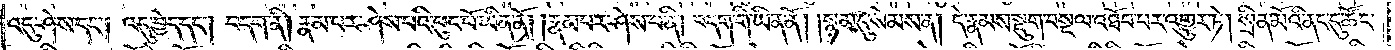འདུ་ཤེས་དང༌། འདུ་བྱེད་དང༌། བདག་ནི། རྣམ་པར་ཤེས་པའི་ཕུང་པོ་ཡིན་ནོ། །རྣམ་པར་ཤེས་པ་ནི། བདག་གི་ཡིན་ནོ། །སྙམ་དུ་སེམས་ན། དེ་རྣམས་སྡུག་བསྔལ་འཐོབ་པར་འགྱུར་ཏེ། སྲིན་མོའི་ནང་དུ་ཚོང་
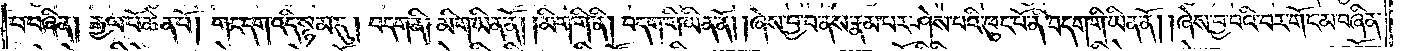པ་བཞིན། རྒྱལ་པོ་ཆེན་པོ། གང་དག་འདི་སྙམ་དུ། བདག་ནི། མིག་ཡིན་ནོ། །མིག་གི་ནི། བདག་གི་ཡིན་ནོ། །ཞེས་བྱ་བ་ནས་རྣམ་པར་ཤེས་པའི་ཕུང་པོ་ནི་བདག་གི་ཡིན་ནོ། །ཞེས་བྱ་བའི་བར་གོང་མ་བཞིན་
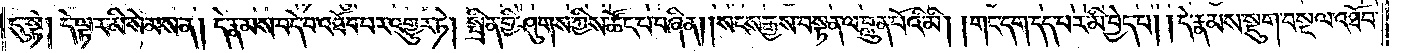དུ་སྟེ། དེ་ལྟར་མི་སེམས་ན། དེ་རྣམས་བདེ་བ་འཐོབ་པར་འགྱུར་ཏེ། སྤྲིན་གྱི་ཤུགས་ཀྱིས་ཚོང་པ་བཞིན། །སངས་རྒྱས་བསྟན་ལ་བླུན་པོའི་མི། །གང་དག་དད་པར་མི་བྱེད་པ། །དེ་རྣམས་སྡུག་བསྔལ་འཐོབ་
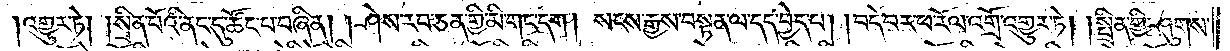།འགྱུར་ཏེ། །སྲིན་པོའི་ནང་དུ་ཚོང་པ་བཞིན། །ཤེས་རབ་ཅན་གྱི་མི་གང་དག། སངས་རྒྱས་བསྟན་ལ་དད་བྱེད་པ། །བདེ་བར་ཕ་རོལ་འགྲོ་འགྱུར་ཏེ། །སྤྲིན་གྱི་ཤུགས་
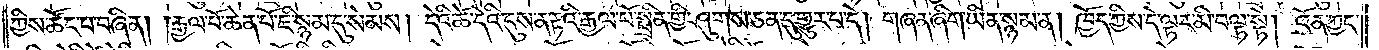ཀྱིས་ཚོང་པ་བཞིན། །རྒྱལ་པོ་ཆེན་པོ་ཇི་སྙམ་དུ་སེམས། དེའི་ཚེ་དེའི་དུས་ན་རྟའི་རྒྱལ་པོ་སྤྲིན་གྱི་ཤུགས་ཅན་དུ་གྱུར་པ་དེ། གཞན་ཞིག་ཡིན་སྙམ་ན། ཁྱོད་ཀྱིས་དེ་ལྟར་མི་བལྟ་སྟེ། འོན་ཀྱང་
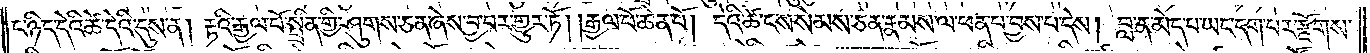ང་ཉིད་དེའི་ཚེ་དེའི་དུས་ན། རྟའི་རྒྱལ་པོ་སྤྲིན་གྱི་ཤུགས་ཅན་ཞེས་བྱ་བར་གྱུར་ཏོ། །རྒྱལ་པོ་ཆེན་པོ། དེའི་ཚེ་ངས་སེམས་ཅན་རྣམས་ལ་ཕན་པ་བྱས་པ་དེས། བླ་ན་མེད་པ་ཡང་དག་པར་རྫོགས་
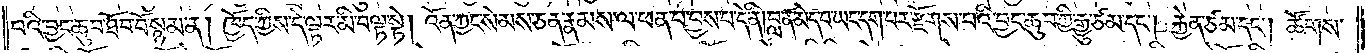པའི་བྱང་ཆུབ་ཐོབ་བོ་སྙམ་ན། ཁྱོད་ཀྱིས་དེ་ལྟར་མི་བལྟ་སྟེ། འོན་ཀྱང་སེམས་ཅན་རྣམས་ལ་ཕན་པ་བྱས་པ་དེ་ནི། བླ་ན་མེད་པ་ཡང་དག་པར་རྫོགས་པའི་བྱང་ཆུབ་ཀྱི་རྒྱུ་ཙམ་དང༌། རྐྱེན་ཙམ་དང༌། ཚོགས་
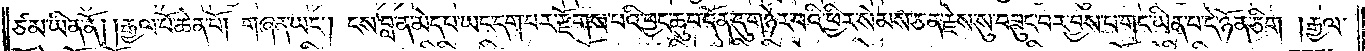ཙམ་ཡིན་ནོ། །རྒྱལ་པོ་ཆེན་པོ། གཞན་ཡང༌། ངས་བླ་ན་མེད་པ་ཡང་དག་པར་རྫོགས་པའི་བྱང་ཆུབ་དོན་དུ་གཉེར་བའི་ཕྱིར་སེམས་ཅན་རྗེས་སུ་བཟུང་བར་བྱས་པ་གང་ཡིན་པ་དེ་ཉོན་ཅིག །རྒྱལ་
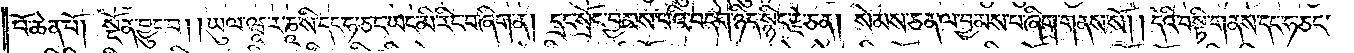པོ་ཆེན་པོ། སྔོན་བྱུང་བ། །ཡུལ་ཝཱ་ར་ཎཱ་སི་དང་ཧ་ཅང་ཡང་མི་རིང་བ་ཞིག་ན། དྲང་སྲོང་བྱམས་པའི་བདག་ཉིད་སྙིང་རྗེ་ཅན། སེམས་ཅན་ལ་བྱམས་པ་ཞིག་གནས་སོ། །དེའི་བསྟི་གནས་དང་ཧ་ཅང་
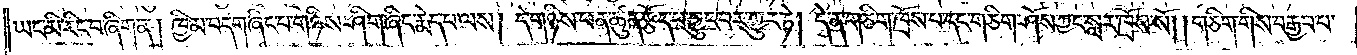ཡང་མི་རིང་བ་ཞིག་ན། ཁྱིམ་བདག་ཞིང་པ་གཉིས་ཤིག་ཞིང་རྨེད་པ་ལས། དེ་གཉིས་ཕན་ཚུན་རྩོད་པ་བྱུང་བར་གྱུར་ཏེ། དེ་ན་གཅིག་ཁྲོས་པ་དང་གཅིག་ཤོས་ཀྱང་སླར་ཁྲོས་སོ། །གཅིག་གིས་བརྒྱབ་པ་
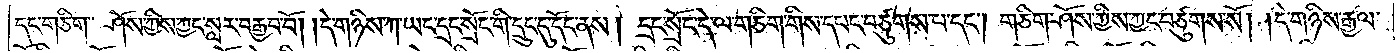དང་གཅིག་ཤོས་ཀྱིས་ཀྱང་སླར་བརྒྱབ་བོ། །དེ་གཉིས་ཀ་ཡང་དྲང་སྲོང་གི་དྲུང་དུ་དོང་ནས། དྲང་སྲོང་དེ་ལ་གཅིག་གིས་དབང་བཙུགས་པ་དང༌། གཅིག་ཤོས་ཀྱིས་ཀྱང་བཙུགས་སོ། །དེ་གཉིས་རྒྱལ་
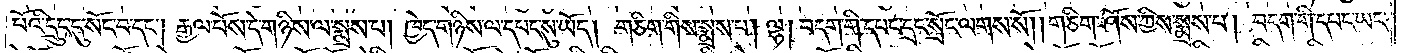པོའི་དྲུང་དུ་སོང་བ་དང༌། རྒྱལ་པོས་དེ་གཉིས་ལ་སྨྲས་པ། ཁྱེད་གཉིས་ལ་དཔང་སུ་ཡོད། གཅིག་གིས་སྨྲས་པ། ལྷ། བདག་གི་དཔང་དྲང་སྲོང་ལགས་སོ། །གཅིག་ཤོས་ཀྱིས་སྨྲས་པ། བདག་གི་དཔང་ཡང་
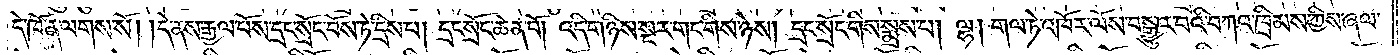དེ་ཁོ་ན་ལགས་སོ། །དེ་ནས་རྒྱལ་པོས་དྲང་སྲོང་བོས་ཏེ་དྲིས་པ། དྲང་སྲོང་ཆེན་པོ། འདི་གཉིས་སྔར་གང་གིས་ཉེས། དྲང་སྲོང་གིས་སྨྲས་པ། ལྷ། གལ་ཏེ་འཁོར་ལོས་བསྒྱུར་བའི་བཀའ་ཁྲིམས་ཀྱིས་ཞལ་
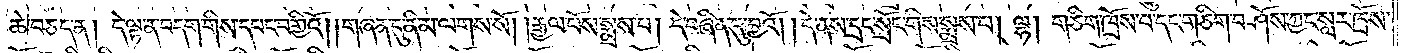ཆེ་བཅད་ན། དེ་ལྟ་ན་བདག་གིས་དབང་བགྱིའོ། །གཞན་དུ་ནི་མ་ལགས་སོ། །རྒྱལ་པོས་སྨྲས་པ། དེ་བཞིན་དུ་བྱའོ། །དེ་ནས་དྲང་སྲོང་གིས་སྨྲས་པ། ལྷ། གཅིག་ཁྲོས་པ་དང་གཅིག་བཤོས་ཀྱང་སླར་ཁྲོས་
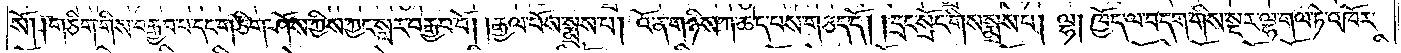སོ། །གཅིག་གིས་བརྒྱབ་པ་དང་གཅིག་ཤོས་ཀྱིས་ཀྱང་སླར་བརྒྱབ་བོ། །རྒྱལ་པོས་སྨྲས་པ། འོ་ན་གཉིས་ཀ་ཆད་པས་གཅད་དོ། །དྲང་སྲོང་གིས་སྨྲས་པ། ལྷ། ཁྱོད་ལ་བདག་གིས་སྔར་ལྷ་གལ་ཏེ་འཁོར་
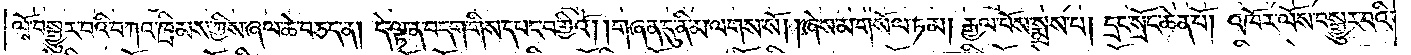ལོས་བསྒྱུར་བའི་བཀའ་ཁྲིམས་ཀྱིས་ཞལ་ཆེ་བཅད་ན། དེ་ལྟ་ན་བདག་གིས་དབང་བགྱིའོ། །གཞན་དུ་ནི་མ་ལགས་སོ། །ཞེས་མ་གསོལ་ཏམ། རྒྱལ་པོས་སྨྲས་པ། དྲང་སྲོང་ཆེན་པོ། འཁོར་ལོས་བསྒྱུར་བའི་
